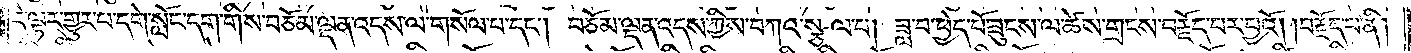དེ་ལྟར་གྱུར་པ་དགེ་སློང་དག་གིས་བཅོམ་ལྡན་འདས་ལ་གསོལ་པ་དང༌། བཅོམ་ལྡན་འདས་ཀྱིས་བཀའ་སྩལ་པ། ཟླ་བ་ཕྱེད་པོ་ཟུངས་ལ་ཚེས་གྲངས་བརྗོད་པར་བྱའོ། །བརྗོད་པ་ནི།
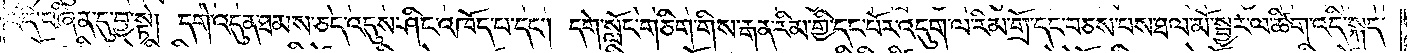འདི་བཞིན་དུ་བྱ་སྟེ། དགེ་འདུན་ཐམས་ཅད་འདུས་ཤིང་འཁོད་པ་དང༌། དགེ་སློང་གཅིག་གིས་རྒན་རིམ་གྱི་དང་པོར་འདུག་ལ་རིམ་གྲོ་དང་བཅས་པས་ཐལ་མོ་སྦྱར་ལ་ཚིག་འདི་སྐད་
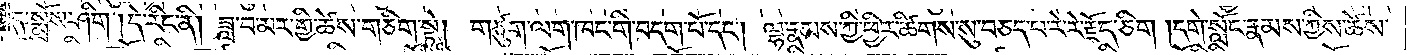དུ་སྨྲོས་ཤིག །དེ་རིང་ནི། ཟླ་བ་མར་གྱི་ཚེས་གཅིག་སྟེ། གཙུག་ལག་ཁང་གི་བདག་པོ་དང༌། ལྷ་རྣམས་ཀྱི་ཕྱིར་ཚིགས་སུ་བཅད་པ་རེ་རེ་རྗོད་ཅིག །དགེ་སློང་རྣམས་ཀྱིས་ཚེས་
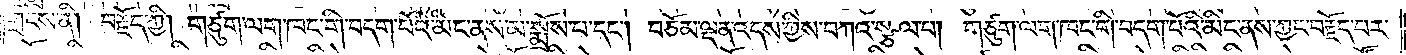གྲངས་ནི། བརྗོད་ཀྱི། གཙུག་ལག་ཁང་གི་བདག་པོའི་མིང་ནས་མ་སྨྲོས་པ་དང༌། བཅོམ་ལྡན་འདས་ཀྱིས་བཀའ་སྩལ་པ། གཙུག་ལག་ཁང་གི་བདག་པོའི་མིང་ནས་ཀྱང་བརྗོད་པར་
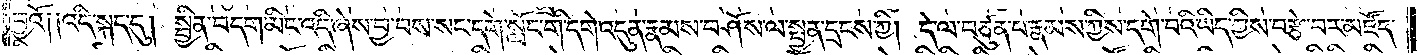བྱའོ༑ ༑འདི་སྐད་དུ། སྦྱིན་བདག་མིང་འདི་ཞེས་བྱ་བས་སང་དགེ་སློང་གི་དགེ་འདུན་རྣམས་བཤོས་ལ་སྤྱན་དྲངས་ཀྱི། དེ་ལ་བཙུན་པ་རྣམས་ཀྱིས་དགེ་བའི་ཡིད་ཀྱིས་བརྩེ་བར་མཛོད་
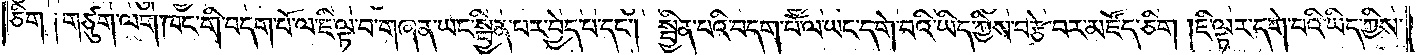ཅིག ༑གཙུག་ལག་ཁང་གི་བདག་པོ་ལ་ཇི་ལྟ་བ་གཞན་ཡང་སྦྱིན་པར་བྱེད་པ་དང༌། སྦྱིན་པའི་བདག་པོ་ལ་ཡང་དགེ་བའི་ཡིད་ཀྱིས་བརྩེ་བར་མཛོད་ཅིག །ཇི་ལྟར་དགེ་བའི་ཡིད་ཀྱིས་
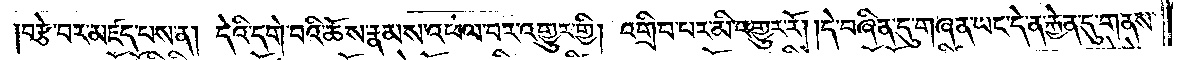བརྩེ་བར་མཛད་པས་ན། དེའི་དགེ་བའི་ཆོས་རྣམས་འཕེལ་བར་འགྱུར་གྱི། འགྲིབ་པར་མི་འགྱུར་རོ། །དེ་བཞིན་དུ་གཞན་ཡང་དེ་ན་རྐྱེན་དུ་གནས་
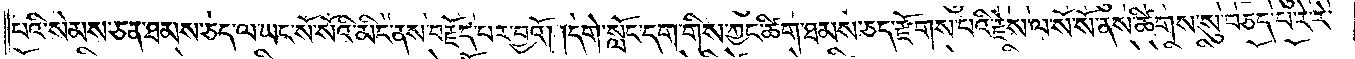པའི་སེམས་ཅན་ཐམས་ཅད་ལ་ཡང་སོ་སོའི་མིང་ནས་བརྗོད་པར་བྱའོ། །དགེ་སློང་དག་གིས་ཀྱང་ཚིག་ཐམས་ཅད་རྫོགས་པའི་རྗེས་ལ་སོ་སོ་ནས་ཚིགས་སུ་བཅད་པ་རེ་རེ་
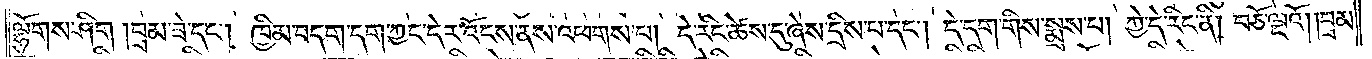ལྷོགས་ཤིག །བྲམ་ཟེ་དང༌། ཁྱིམ་བདག་དག་ཀྱང་དེར་འོངས་ནས་འཕགས་པ། དེ་རིང་ཚེས་དུ་ཞེས་དྲིས་པ་དང༌། དེ་དག་གིས་སྨྲས་པ། ཀྱེ་དེ་རིང་ནི། བཅོ་ལྔའོ། །བྲམ་
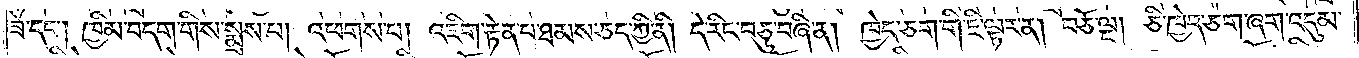ཟེ་དང༌། ཁྱིམ་བདག་གིས་སྨྲས་པ། འཕགས་པ། འཇིག་རྟེན་པ་ཐམས་ཅད་ཀྱི་ནི། དེ་རིང་བཅུ་བཞི་ན། ཁྱེད་ཅག་གི་ཇི་ལྟར་ན། བཅོ་ལྔ། ཅི་ཁྱེད་ཅག་ཞག་འདུམ་
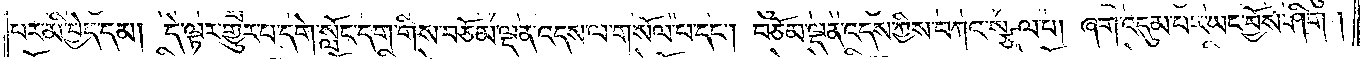པར་མི་བྱེད་དམ། དེ་ལྟར་གྱུར་པ་དགེ་སློང་དག་གིས་བཅོམ་ལྡན་འདས་ལ་གསོལ་པ་དང༌། བཅོམ་ལྡན་འདས་ཀྱིས་བཀའ་སྩལ་པ། ཞག་འདུམ་པར་ཡང་བྱོས་ཤིག །
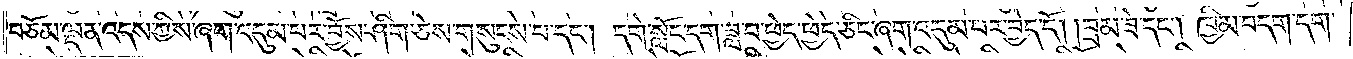བཅོམ་ལྡན་འདས་ཀྱིས་ཞག་འདུམ་པར་བྱོས་ཤིག་ཅེས་གསུངས་པ་དང༌། དགེ་སློང་དག་ཟླ་བ་ཕྱེད་ཕྱེད་ཅིང་ཞག་འདུམ་པར་བྱེད་དོ། །བྲམ་ཟེ་དང༌། ཁྱིམ་བདག་དག་
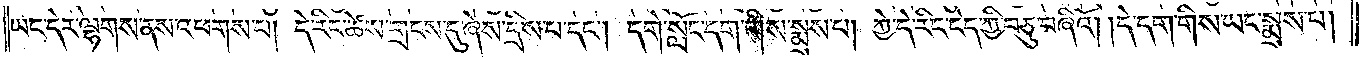ཡང་དེར་ལྷགས་ནས་འཕགས་པ། དེ་རིང་ཚེས་གྲངས་དུ་ཞེས་དྲིས་པ་དང༌། དགེ་སློང་དག་གིས་སྨྲས་པ། ཀྱེ་དེ་རིང་ངེད་ཀྱི་བཅུ་བཞིའོ། །དེ་དག་གིས་ཡང་སྨྲས་པ།
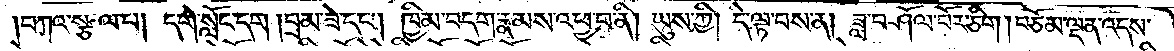བཀའ་སྩལ་པ། དགེ་སློང་དག །བྲམ་ཟེ་དང༌། ཁྱིམ་བདག་རྣམས་འཕྱ་བ་ནི། ཡུས་ཀྱི། དེ་ལྟ་བས་ན། ཟླ་བཤོལ་བོར་ཅིག །བཅོམ་ལྡན་འདས་
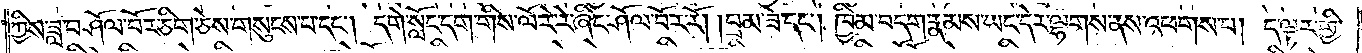ཀྱིས་ཟླ་བཤོལ་བོར་ཅིག་ཅེས་གསུངས་པ་དང༌། དགེ་སློང་དག་གིས་ལོ་རེ་རེ་ཞིང་ཤོལ་བོར་རོ། །བྲམ་ཟེ་དང༌། ཁྱིམ་བདག་རྣམས་ཡང་དེར་ལྷགས་ནས་འཕགས་པ། ད་ལྟར་གྱི་
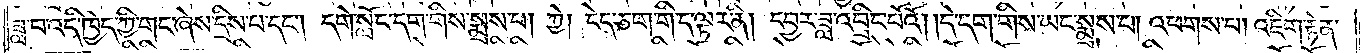ཟླ་བ་འདི་ཁྱེད་ཀྱི་གང་ཞེས་དྲིས་པ་དང༌། དགེ་སློང་དག་གིས་སྨྲས་པ། ཀྱེ། ངེད་ཅག་གི་ད་ལྟར་ནི། དབྱར་ཟླ་འབྲིང་པོའོ། །དེ་དག་གིས་ཡང་སྨྲས་པ། འཕགས་པ། འཇིག་རྟེན་
